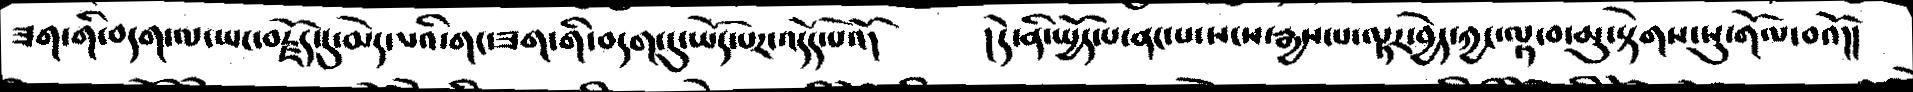ཟག་གི་བདག་ལ་ཡང་བརྗོད་དུ་མེད་པའི་གང་ཟག་གི་བདག་དུ་ཡོད་པར་འདོད་པའོ།   །དེ་ནི་སྤྱོད་པ་ནང་པ་སངས་རྒྱས་པ་ལྟར་བྱེད་ཀྱང་ལྟ་བ་མུ་སྟེགས་སུ་གོལ་བའོ།།
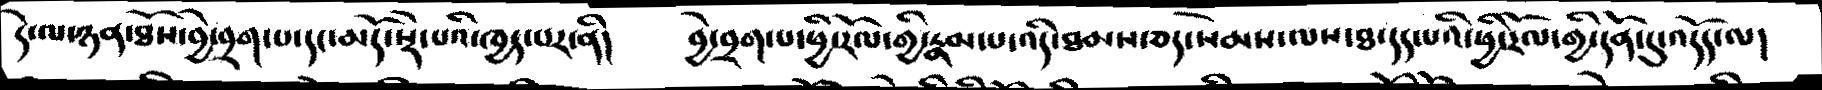དེ་ལ་ཉན་ཐོས་བྱེ་བྲག་པ་དང་མདོ་སྡེ་པའི་ཁྱད་པར་ནི།   བྱེ་བྲག་པ་ཕྱི་རོལ་གྱི་རྣམ་པ་འདི་ཐམས་ཅད་སེམས་ལས་ཐ་དད་པའི་ཕྱི་རོལ་གྱི་དོན་དུ་འདོད་ལ།
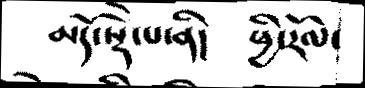མདོ་སྡེ་པ་ནི།   ཕྱི་རོལ་
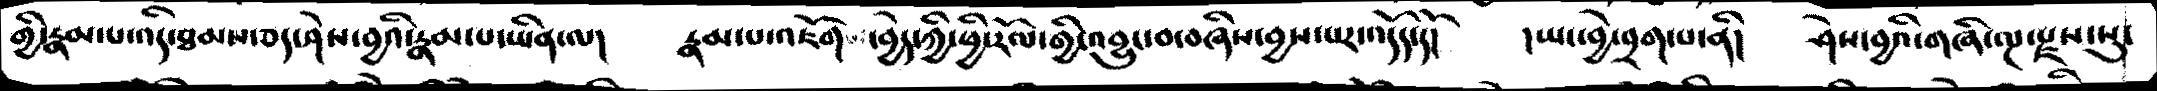གྱི་རྣམ་པ་འདི་ཐམས་ཅད་ཤེས་བྱའི་རྣམ་པ་ཡིན་ལ།   རྣམ་པ་འཇོག ་བྱེད་ཀྱི་ཕྱི་རོལ་གྱི་འབྱུང་བ་བཞིས་བྱས་པར་འདོད་དོ།   །ཡང་བྱེ་བྲག་པ་ནི།   ཤེས་བྱའི་གཞི་ལྔ་རྫས་སུ་
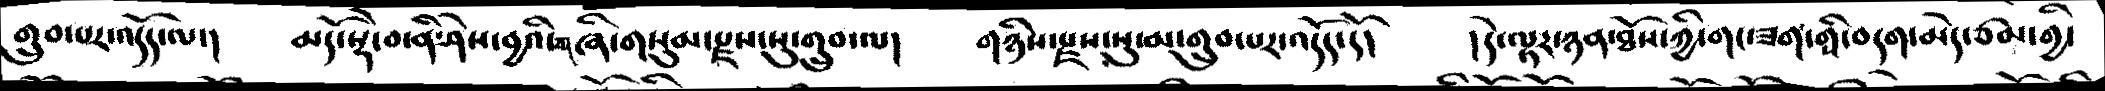གྲུབ་པར་འདོད་ལ་།   མདོ་སྡེ་པ་ནི་ཤེས་བྱའི་གཞི་གསུམ་རྫས་སུ་གྲུབ་ལ།   གཉིས་རྫས་སུ་མ་གྲུབ་པར་འདོད་དོ།   །དེ་ལྟར་ཉན་ཐོས་ཀྱི་གང་ཟག་གིས་བདག་མེད་ཙམ་གྱི་
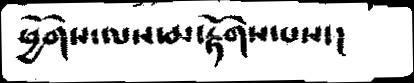ཕྱོགས་ལས་མ་རྟོགས་པས་།
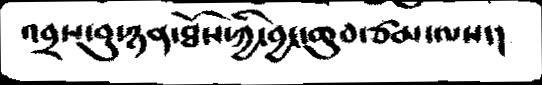འབྲས་བུ་ཉན་ཐོས་ཀྱི་བྱང་ཆུབ་ཙམ་ལས་།
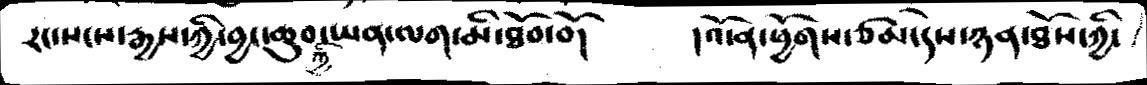རང་སངས་རྒྱས་ཀྱི་བྱང་ཆུབ་ཀྱི་ཡན་ལག་མི་ཐོབ་བོ།   །འོ་ན་ཕྱོགས་ཙམ་དེས་ཉན་ཐོས་ཀྱི་
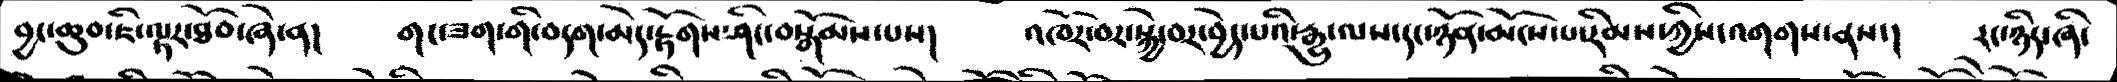བྱང་ཆུབ་ཇི་ལྟར་ཐོབ་ཞེ་ན།   གང་ཟག་གི་བདག་མེད་རྟོགས་ཤིང་བསྒོམས་པས།   འཁོར་བར་སྐྱེ་བར་བྱེད་པའི་རྒྱུ་ལས་དང་ཉོན་མོངས་པ་རིམས་ཀྱིས་འགགས་ནས་།   རང་ཉིད་ཞི་
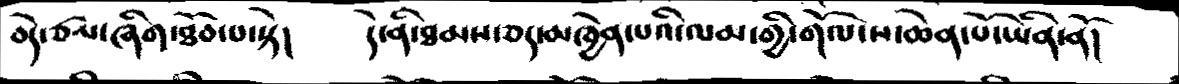བདེ་ཙམ་ཞིག་ཐོབ་པ་སྟེ།   དེ་ནི་ཐམས་ཅད་མཁྱེན་པའི་ལམ་གྱི་གོལ་ས་ཆེན་པོ་ཡིན་ནོ།
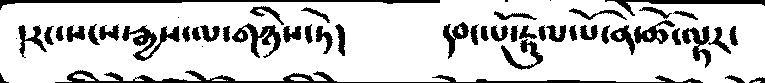།རང་སངས་རྒྱས་ལ་གཉིས་ཏེ།    དབང་པོ་རྟུལ་པོ་ནི་ཚོ་ལྟར་
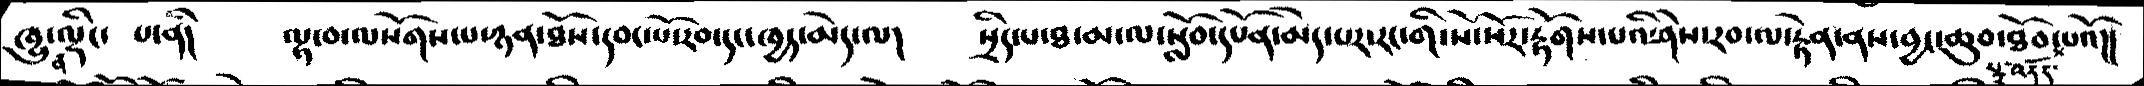ཁྱུན་ལྡིང་ པ་ནི།  ལྟ་བ་ལསོགས་པ་ཉན་ཐོས་དབང་པོ་རབ་དང་ཁྱད་མེད་ལ།   སྲིད་པ་ཐ་མ་ལ་སློབ་དཔོན་མེད་པར་རང་གི་སོ་སོར་རྟོགས་པའི་ཤེས་རབ་ལ་རྟེན་ནས་བྱང་ཆུབ་ཐོབ་པར་འདོད་པའོ།།
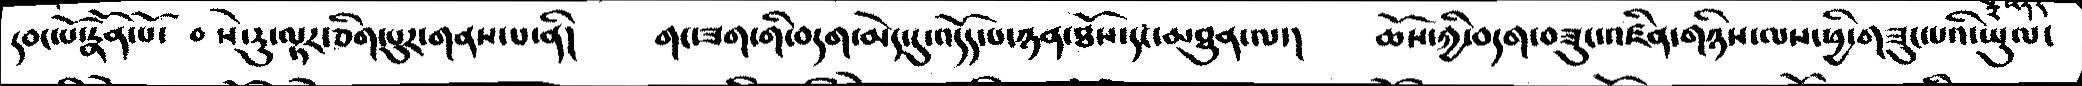དབང་པོ་རྣོན་པོ་ བསེ་རུ་ལྟར་ཅིག་པུར་གནས་པ་ནི།   གང་ཟག་གི་བདག་མེད་དུ་འདོད་པ་ཉན་ཐོས་དང་མཐུན་ལ་།   ཆོས་ཀྱི་བདག་བཟུང་འཛིན་གཉིས་ལས་ཕྱི་གཟུང་པའི་ཡུལ་
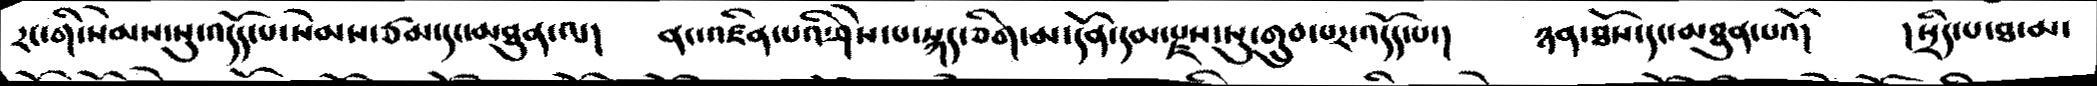རང་གི་སེམས་སུ་འདོད་པ་སེམས་ཙམ་དང་མཐུན་ལ།   ནང་འཛིན་པའི་ཤེས་པ་སྐད་ཅིག་མ་དོན་དམ་རྫས་སུ་གྲུབ་པར་འདོད་པ་།   ཉན་ཐོས་དང་མཐུན་པའོ།   །སྲིད་པ་ཐ་མ་
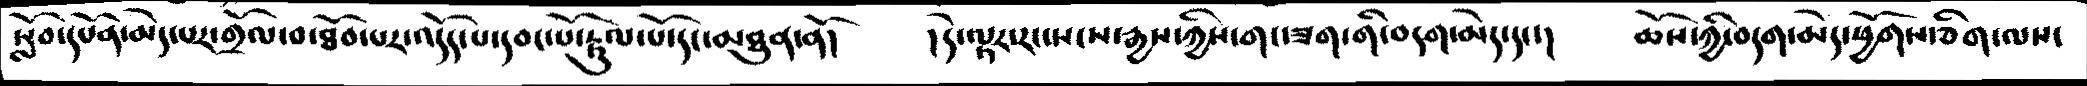སློབ་དཔོན་མེད་པར་གྲོལ་བ་ཐོབ་པར་འདོད་པ་དབང་པོ་རྟུལ་པོ་དང་མཐུན་ནོ།   །དེ་ལྟར་རང་སངས་རྒྱས་ཀྱིས་གང་ཟག་གི་བདག་མེད་དང་།   ཆོས་ཀྱི་བདག་མེད་ཕྱོགས་ཅིག་ལས་
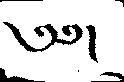༄༅།
